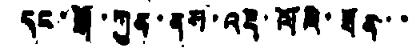དང་སྒོ་ཀུན་ནས་འདི་ལོའི་ཐོན་་
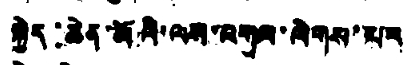སྐྱེད་ཆེན་མོའི་ལས་འགུལ་ལེགས་པར
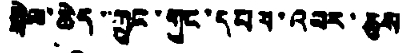སྤེལ་ཆེད་ཀྲུང་གུང་དཔལ་འབར་ཆུས
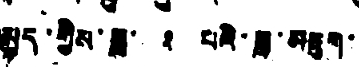མྱུད་གྱིས་ཟླ་ ༢ པའི་ཟླ་མཇུག་
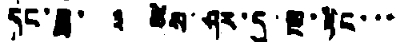དང་ཟླ་ ༣ ཚེས་ཤར་དུ་སྔ་རྟིང་་་
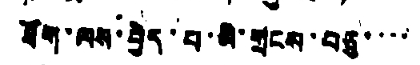ཐོག་ལས་བྱེད་པ་མི་གྲངས་བཅུ་་་་
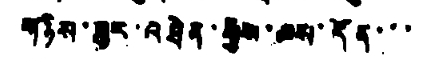གཉིས་ཟུར་འཐེན་རྒྱས་ལས་དོན་་་
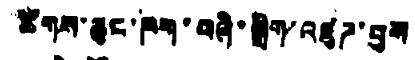ཚོགས་ཆུང་ཁག་བཞི་སྒྲིག་འཛུཌ་བྱས
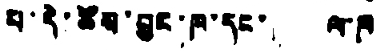པ་དེ་ཚོས་བྱང་ཁག་དང་ ལ་ཁ
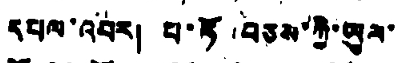དཔལ་འབར། པ་ཏོ་བཅས་ཀྱི་ཡུལ་
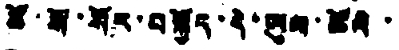ཚོ་སོ་སོར་བསྐྱོད་དེ་ཡུལ་ཚོའི་
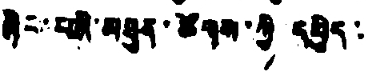ཞིང་པའི་མཐུན་ཚོགས་ཀྱི་དཔྱིད་
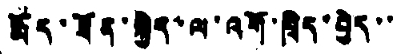རྨོད་ཐོན་སྐྱེད་ལ་འགོ་ཁྲིད་བྱེད་་
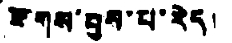རོགས་བྱས་པ་རེད།
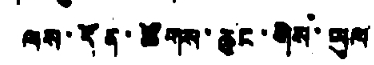ལས་དོན་ཚོགས་ཆུང་གིས་ཡུལ
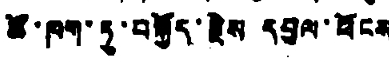ཚོ་ཁག་ཏུ་བསྐྱོད་རྗེས དབུལ་ཕོངས
